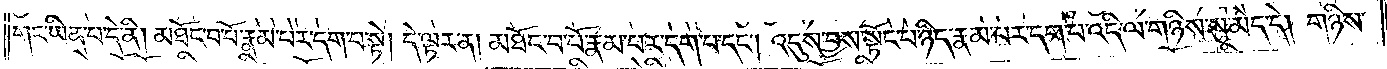གང་ཡིན་པ་དེ་ནི། མཐོང་བ་པོ་རྣམ་པར་དག་པ་སྟེ། དེ་ལྟར་ན། མཐོང་བ་པོ་རྣམ་པར་དག་པ་དང༌། འདུས་བྱས་སྟོང་པ་ཉིད་རྣམ་པར་དག་པ་འདི་ལ་གཉིས་སུ་མེད་དེ། གཉིས་
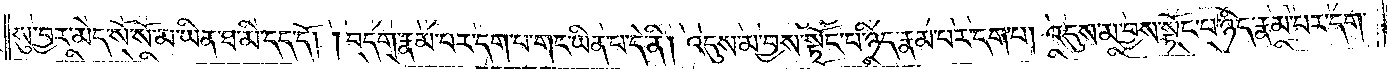སུ་བྱར་མེད་སོ་སོ་མ་ཡིན་ཐ་མི་དད་དོ། །བདག་རྣམ་པར་དག་པ་གང་ཡིན་པ་དེ་ནི། འདུས་མ་བྱས་སྟོང་པ་ཉིད་རྣམ་པར་དག་པ། འདུས་མ་བྱས་སྟོང་པ་ཉིད་རྣམ་པར་དག་
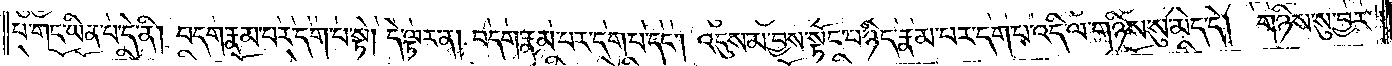པ་གང་ཡིན་པ་དེ་ནི། བདག་རྣམ་པར་དག་པ་སྟེ། དེ་ལྟར་ན། བདག་རྣམ་པར་དག་པ་དང༌། འདུས་མ་བྱས་སྟོང་པ་ཉིད་རྣམ་པར་དག་པ་འདི་ལ་གཉིས་སུ་མེད་དེ། གཉིས་སུ་བྱར་
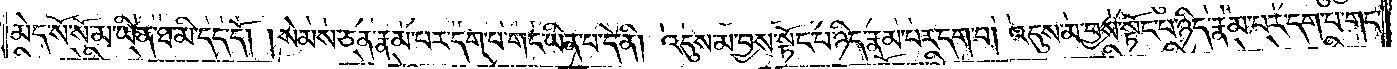མེད་སོ་སོ་མ་ཡིན་ཐ་མི་དད་དོ། །སེམས་ཅན་རྣམ་པར་དག་པ་གང་ཡིན་པ་དེ་ནི། འདུས་མ་བྱས་སྟོང་པ་ཉིད་རྣམ་པར་དག་པ། འདུས་མ་བྱས་སྟོང་པ་ཉིད་རྣམ་པར་དག་པ་གང་
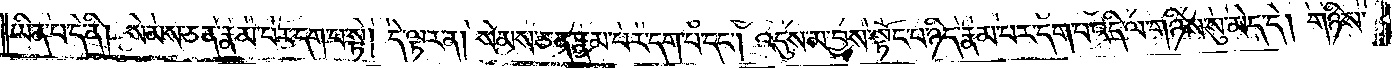ཡིན་པ་དེ་ནི། སེམས་ཅན་རྣམ་པར་དག་པ་སྟེ། དེ་ལྟར་ན། སེམས་ཅན་རྣམ་པར་དག་པ་དང༌། འདུས་མ་བྱས་སྟོང་པ་ཉིད་རྣམ་པར་དག་པ་འདི་ལ་གཉིས་སུ་མེད་དེ། གཉིས་
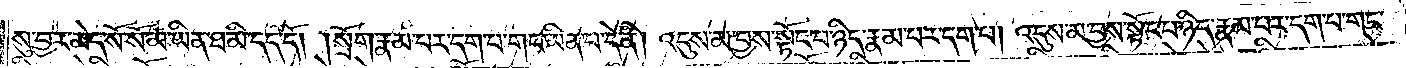སུ་བྱར་མེད་སོ་སོ་མ་ཡིན་ཐ་མི་དད་དོ། །སྲོག་རྣམ་པར་དག་པ་གང་ཡིན་པ་དེ་ནི། འདུས་མ་བྱས་སྟོང་པ་ཉིད་རྣམ་པར་དག་པ། འདུས་མ་བྱས་སྟོང་པ་ཉིད་རྣམ་པར་དག་པ་གང་
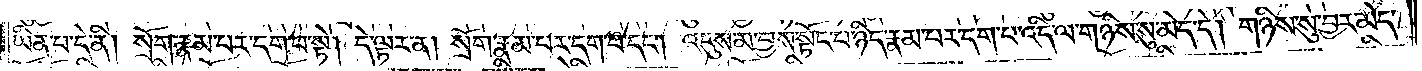ཡིན་པ་དེ་ནི། སྲོག་རྣམ་པར་དག་པ་སྟེ། དེ་ལྟར་ན། སྲོག་རྣམ་པར་དག་པ་དང༌། འདུས་མ་བྱས་སྟོང་པ་ཉིད་རྣམ་པར་དག་པ་འདི་ལ་གཉིས་སུ་མེད་དེ། གཉིས་སུ་བྱར་མེད་
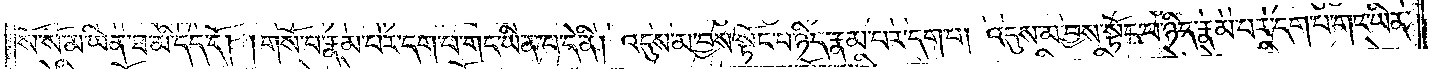སོ་སོ་མ་ཡིན་ཐ་མི་དད་དོ། །གསོ་བ་རྣམ་པར་དག་པ་གང་ཡིན་པ་དེ་ནི། འདུས་མ་བྱས་སྟོང་པ་ཉིད་རྣམ་པར་དག་པ། འདུས་མ་བྱས་སྟོང་པ་ཉིད་རྣམ་པར་དག་པ་གང་ཡིན་
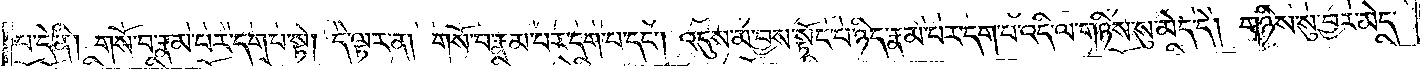པ་དེ་ནི། གསོ་བ་རྣམ་པར་དག་པ་སྟེ། དེ་ལྟར་ན། གསོ་བ་རྣམ་པར་དག་པ་དང༌། འདུས་མ་བྱས་སྟོང་པ་ཉིད་རྣམ་པར་དག་པ་འདི་ལ་གཉིས་སུ་མེད་དེ། གཉིས་སུ་བྱར་མེད་
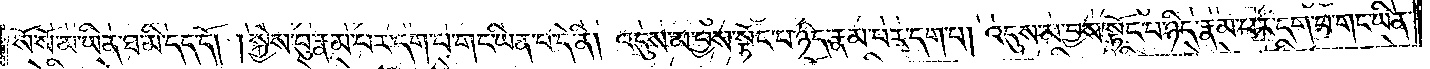སོ་སོ་མ་ཡིན་ཐ་མི་དད་དོ། །སྐྱེས་བུ་རྣམ་པར་དག་པ་གང་ཡིན་པ་དེ་ནི། འདུས་མ་བྱས་སྟོང་པ་ཉིད་རྣམ་པར་དག་པ། འདུས་མ་བྱས་སྟོང་པ་ཉིད་རྣམ་པར་དག་པ་གང་ཡིན་
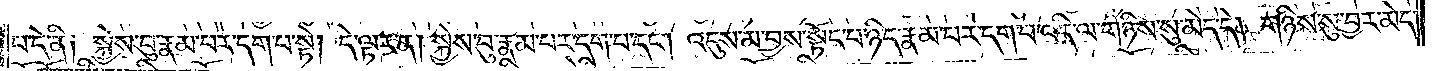པ་དེ་ནི། སྐྱེས་བུ་རྣམ་པར་དག་པ་སྟེ། དེ་ལྟར་ན། སྐྱེས་བུ་རྣམ་པར་དག་པ་དང༌། འདུས་མ་བྱས་སྟོང་པ་ཉིད་རྣམ་པར་དག་པ་འདི་ལ་གཉིས་སུ་མེད་དེ། གཉིས་སུ་བྱར་མེད་
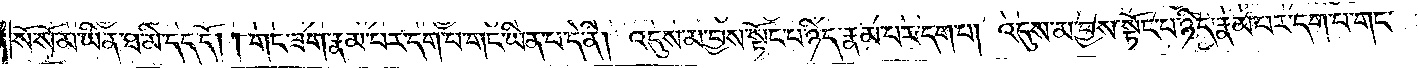སོ་སོ་མ་ཡིན་ཐ་མི་དད་དོ། །གང་ཟག་རྣམ་པར་དག་པ་གང་ཡིན་པ་དེ་ནི། འདུས་མ་བྱས་སྟོང་པ་ཉིད་རྣམ་པར་དག་པ། འདུས་མ་བྱས་སྟོང་པ་ཉིད་རྣམ་པར་དག་པ་གང་
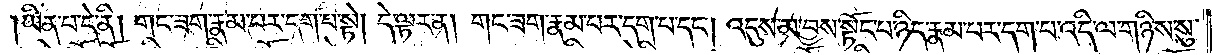ཡིན་པ་དེ་ནི། གང་ཟག་རྣམ་པར་དག་པ་སྟེ། དེ་ལྟར་ན། གང་ཟག་རྣམ་པར་དག་པ་དང༌། འདུས་མ་བྱས་སྟོང་པ་ཉིད་རྣམ་པར་དག་པ་འདི་ལ་གཉིས་སུ་
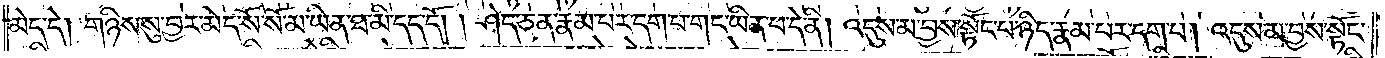མེད་དེ། གཉིས་སུ་བྱར་མེད་སོ་སོ་མ་ཡིན་ཐ་མི་དད་དོ། །ཤེད་ཅན་རྣམ་པར་དག་པ་གང་ཡིན་པ་དེ་ནི། འདུས་མ་བྱས་སྟོང་པ་ཉིད་རྣམ་པར་དག་པ། འདུས་མ་བྱས་སྟོང་
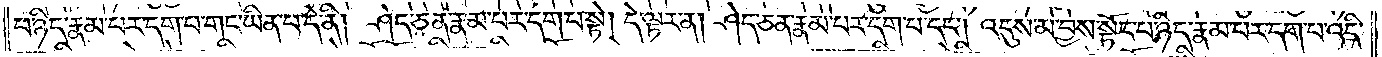པ་ཉིད་རྣམ་པར་དག་པ་གང་ཡིན་པ་དེ་ནི། ཤེད་ཅན་རྣམ་པར་དག་པ་སྟེ། དེ་ལྟར་ན། ཤེད་ཅན་རྣམ་པར་དག་པ་དང༌། འདུས་མ་བྱས་སྟོང་པ་ཉིད་རྣམ་པར་དག་པ་འདི་
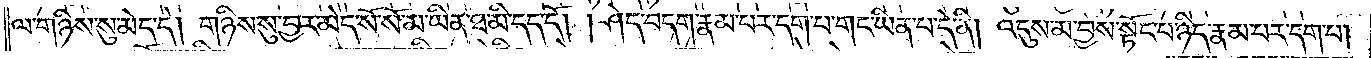ལ་གཉིས་སུ་མེད་དེ། གཉིས་སུ་བྱར་མེད་སོ་སོ་མ་ཡིན་ཐ་མི་དད་དོ། །ཤེད་བདག་རྣམ་པར་དག་པ་གང་ཡིན་པ་དེ་ནི། འདུས་མ་བྱས་སྟོང་པ་ཉིད་རྣམ་པར་དག་པ།
